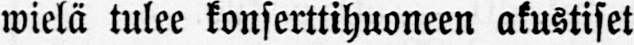wielä tulee konserttihuoneen akustiset
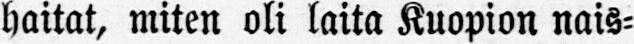haitat, miten oli laita Kuopion nais-
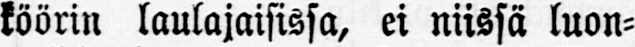köörin laulajaisissa, ei niissä luon-
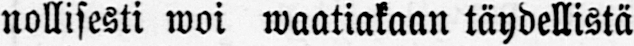nollisesti woi waatiakaan täydellistä
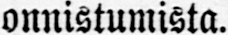onnistumista.
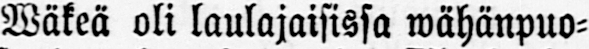Wäkeä oli laulajaisissa wähänpuo-
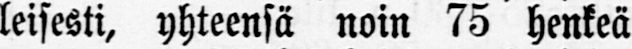leisesti, yhteensä noin 75 henkeä
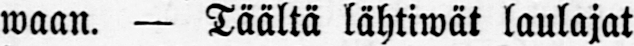waan. — Täältä lähtiwät laulajat
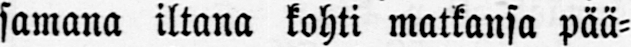samana iltana kohti matkansa pää-
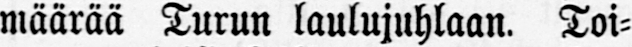määrää Turun laulujuhlaan. Toi-
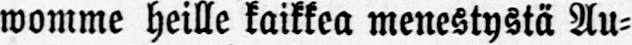womme heille kaikkea menestystä Au-
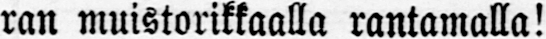ran muistorikkaalla rantamalla!
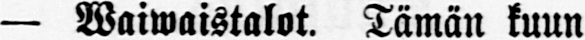— Waiwaistalot. Tämän kuun
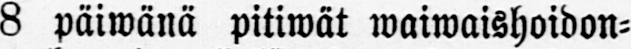8 päiwänä pitiwät waiwaishoidon-
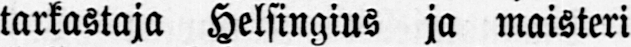tarkastaja Helsingius ja maisteri
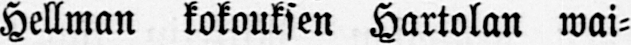Hellman kokouksen Hartolan wai-
